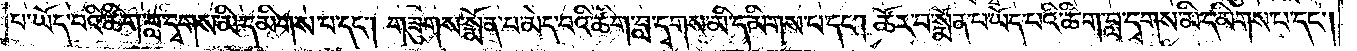པ་ཡོད་པའི་ཚིག་བླ་དྭགས་མི་དམིགས་པ་དང༌། གཟུགས་སྨོན་པ་མེད་པའི་ཚིག་བླ་དྭགས་མི་དམིགས་པ་དང༌། ཚོར་བ་སྨོན་པ་ཡོད་པའི་ཚིག་བླ་དྭགས་མི་དམིགས་པ་དང༌།
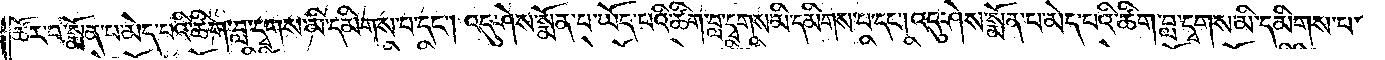ཚོར་བ་སྨོན་པ་མེད་པའི་ཚིག་བླ་དྭགས་མི་དམིགས་པ་དང༌། འདུ་ཤེས་སྨོན་པ་ཡོད་པའི་ཚིག་བླ་དྭགས་མི་དམིགས་པ་དང༌། འདུ་ཤེས་སྨོན་པ་མེད་པའི་ཚིག་བླ་དྭགས་མི་དམིགས་པ་
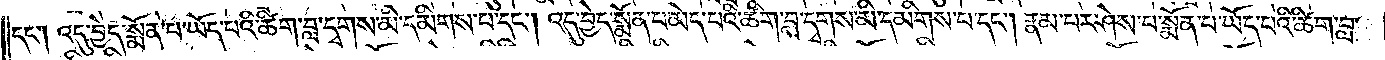དང༌། འདུ་བྱེད་སྨོན་པ་ཡོད་པའི་ཚིག་བླ་དྭགས་མི་དམིགས་པ་དང༌། འདུ་བྱེད་སྨོན་པ་མེད་པའི་ཚིག་བླ་དྭགས་མི་དམིགས་པ་དང༌། རྣམ་པར་ཤེས་པ་སྨོན་པ་ཡོད་པའི་ཚིག་བླ་
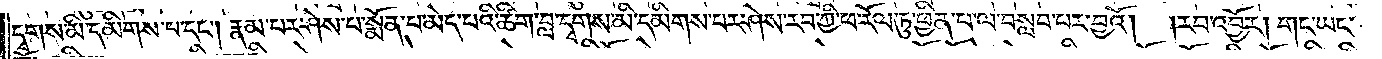དྭགས་མི་དམིགས་པ་དང༌། རྣམ་པར་ཤེས་པ་སྨོན་པ་མེད་པའི་ཚིག་བླ་དྭགས་མི་དམིགས་པར་ཤེས་རབ་ཀྱི་ཕ་རོལ་ཏུ་ཕྱིན་པ་ལ་བསླབ་པར་བྱའོ། །རབ་འབྱོར། གང་ཡང་
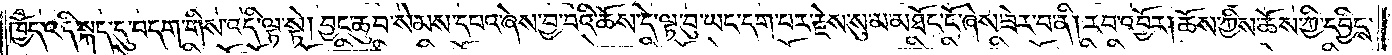ཁྱོད་འདི་སྐད་དུ་བདག་གིས་འདི་ལྟ་སྟེ། བྱང་ཆུབ་སེམས་དཔའ་ཞེས་བྱ་བའི་ཆོས་དེ་ལྟ་བུ་ཡང་དག་པར་རྗེས་སུ་མ་མཐོང་ངོ་ཞེས་ཟེར་བ་ནི། རབ་འབྱོར། ཆོས་ཀྱིས་ཆོས་ཀྱི་དབྱིངས་
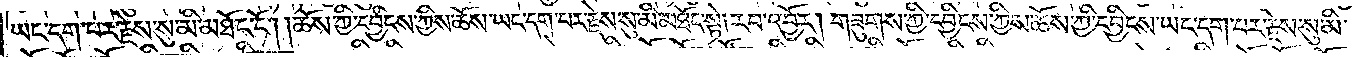ཡང་དག་པར་རྗེས་སུ་མི་མཐོང་ངོ༌། །ཆོས་ཀྱི་དབྱིངས་ཀྱིས་ཆོས་ཡང་དག་པར་རྗེས་སུ་མི་མཐོང་སྟེ། རབ་འབྱོར། གཟུགས་ཀྱི་དབྱིངས་ཀྱིས་ཆོས་ཀྱི་དབྱིངས་ཡང་དག་པར་རྗེས་སུ་མི་
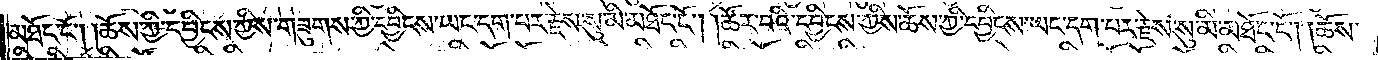མཐོང་ངོ༌། །ཆོས་ཀྱི་དབྱིངས་ཀྱིས་གཟུགས་ཀྱི་དབྱིངས་ཡང་དག་པར་རྗེས་སུ་མི་མཐོང་ངོ༌། །ཚོར་བའི་དབྱིངས་ཀྱིས་ཆོས་ཀྱི་དབྱིངས་ཡང་དག་པར་རྗེས་སུ་མི་མཐོང་ངོ༌། །ཆོས་
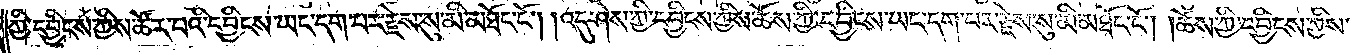ཀྱི་དབྱིངས་ཀྱིས་ཚོར་བའི་དབྱིངས་ཡང་དག་པར་རྗེས་སུ་མི་མཐོང་ངོ༌། །འདུ་ཤེས་ཀྱི་དབྱིངས་ཀྱིས་ཆོས་ཀྱི་དབྱིངས་ཡང་དག་པར་རྗེས་སུ་མི་མཐོང་ངོ༌། །ཆོས་ཀྱི་དབྱིངས་ཀྱིས་
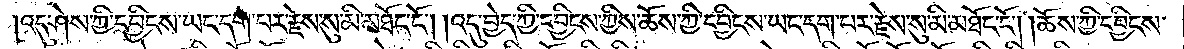འདུ་ཤེས་ཀྱི་དབྱིངས་ཡང་དག་པར་རྗེས་སུ་མི་མཐོང་ངོ༌། །འདུ་བྱེད་ཀྱི་དབྱིངས་ཀྱིས་ཆོས་ཀྱི་དབྱིངས་ཡང་དག་པར་རྗེས་སུ་མི་མཐོང་ངོ༌། །ཆོས་ཀྱི་དབྱིངས་
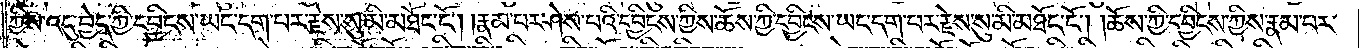ཀྱིས་འདུ་བྱེད་ཀྱི་དབྱིངས་ཡང་དག་པར་རྗེས་སུ་མི་མཐོང་ངོ༌། །རྣམ་པར་ཤེས་པའི་དབྱིངས་ཀྱིས་ཆོས་ཀྱི་དབྱིངས་ཡང་དག་པར་རྗེས་སུ་མི་མཐོང་ངོ༌། །ཆོས་ཀྱི་དབྱིངས་ཀྱིས་རྣམ་པར་
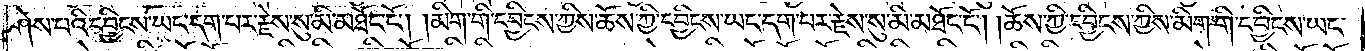ཤེས་པའི་དབྱིངས་ཡང་དག་པར་རྗེས་སུ་མི་མཐོང་ངོ༌། །མིག་གི་དབྱིངས་ཀྱིས་ཆོས་ཀྱི་དབྱིངས་ཡང་དག་པར་རྗེས་སུ་མི་མཐོང་ངོ༌། །ཆོས་ཀྱི་དབྱིངས་ཀྱིས་མིག་གི་དབྱིངས་ཡང་
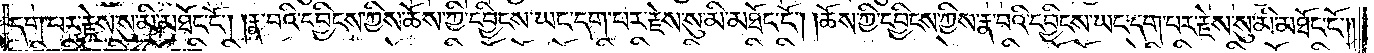དག་པར་རྗེས་སུ་མི་མཐོང་ངོ༌། །རྣ་བའི་དབྱིངས་ཀྱིས་ཆོས་ཀྱི་དབྱིངས་ཡང་དག་པར་རྗེས་སུ་མི་མཐོང་ངོ༌། །ཆོས་ཀྱི་དབྱིངས་ཀྱིས་རྣ་བའི་དབྱིངས་ཡང་དག་པར་རྗེས་སུ་མི་མཐོང་ངོ༌༎
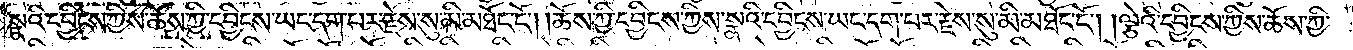སྣའི་དབྱིངས་ཀྱིས་ཆོས་ཀྱི་དབྱིངས་ཡང་དག་པར་རྗེས་སུ་མི་མཐོང་ངོ༌། །ཆོས་ཀྱི་དབྱིངས་ཀྱིས་སྣའི་དབྱིངས་ཡང་དག་པར་རྗེས་སུ་མི་མཐོང་ངོ༌། །ལྕེའི་དབྱིངས་ཀྱིས་ཆོས་ཀྱི་
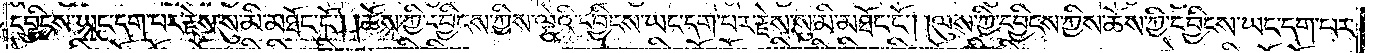དབྱིངས་ཡང་དག་པར་རྗེས་སུ་མི་མཐོང་ངོ༌། །ཆོས་ཀྱི་དབྱིངས་ཀྱིས་ལྕེའི་དབྱིངས་ཡང་དག་པར་རྗེས་སུ་མི་མཐོང་ངོ༌། །ལུས་ཀྱི་དབྱིངས་ཀྱིས་ཆོས་ཀྱི་དབྱིངས་ཡང་དག་པར་
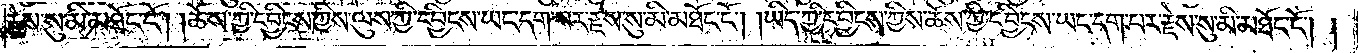རྗེས་སུ་མི་མཐོང་ངོ༌། །ཆོས་ཀྱི་དབྱིངས་ཀྱིས་ལུས་ཀྱི་དབྱིངས་ཡང་དག་པར་རྗེས་སུ་མི་མཐོང་ངོ༌། །ཡིད་ཀྱི་དབྱིངས་ཀྱིས་ཆོས་ཀྱི་དབྱིངས་ཡང་དག་པར་རྗེས་སུ་མི་མཐོང་ངོ༌། །
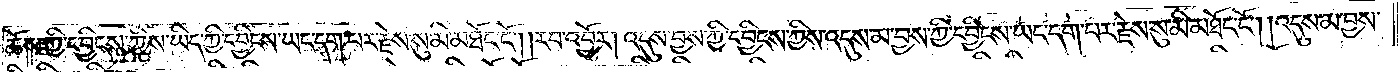ཆོས་ཀྱི་དབྱིངས་ཀྱིས་ཡིད་ཀྱི་དབྱིངས་ཡང་དག་པར་རྗེས་སུ་མི་མཐོང་ངོ༌། །རབ་འབྱོར། འདུས་བྱས་ཀྱི་དབྱིངས་ཀྱིས་འདུས་མ་བྱས་ཀྱི་དབྱིངས་ཡང་དག་པར་རྗེས་སུ་མི་མཐོང་ངོ༌། །འདུས་མ་བྱས་
